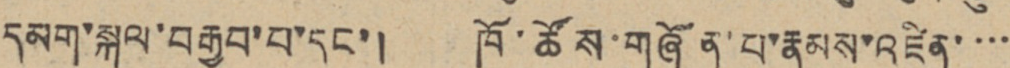དམག་སྐུལ་བརྒྱབ་པ་དང་། ཁོ་ཚོས་གཞོན་པ་རྣམས་འཛིན་་་་
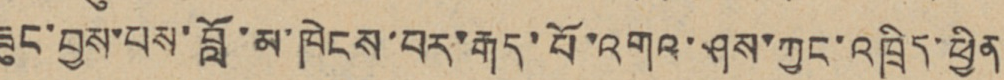ཟུང་བྱས་པས་བློ་མ་ཁེངས་པར་རྒད་པོ་འགའ་ཤས་ཀྱང་འཁྲིད་ཕྱིན
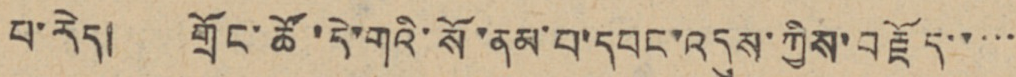པ་རེད། གྲོང་ཚོ་དེ་གའི་སོ་ནམ་པ་དབང་འདུས་ཀྱིས་བརྗོད་་་་་
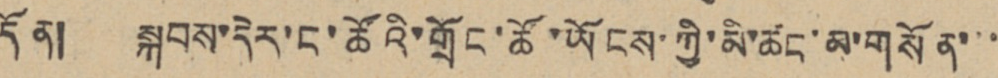དོན། སྐབས་དེར་ང་ཚོའི་གྲོང་ཚོ་ཡོངས་ཀྱི་མི་ཚང་མ་གསོན་་་
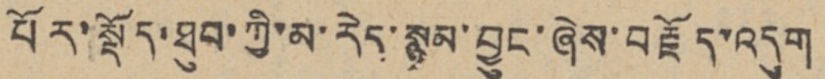པོར་སྡོད་ཐུབ་ཀྱི་མ་རེད་སྙམ་བྱུང་ཞེས་བརྗོད་འདུག
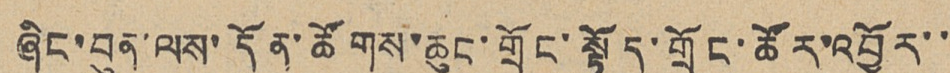ཞིང་བུན་ལས་དོན་ཚོགས་ཆུང་གྲོང་སྟོད་གྲོང་ཚོར་འབྱོར་་
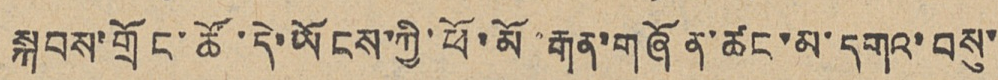སྐབས་གྲོང་ཚོ་དེ་ཡོངས་ཀྱི་ཕོ་མོ་རྒན་གཞོན་ཚང་མ་དགའ་བསུ་་
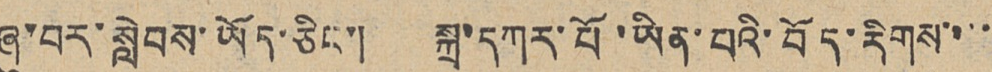ཞུ་བར་སླེབས་ཡོད་ཅིང་། སྐྲ་དཀར་པོ་ཡིན་པའི་བོད་རིགས་་་་
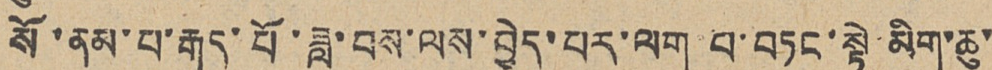སོ་ནམ་པ་རྒད་པོ་ཟླ་བས་ལས་བྱེད་པར་ལག པ་བཏང་སྟེ་མིག་ཆུ་་
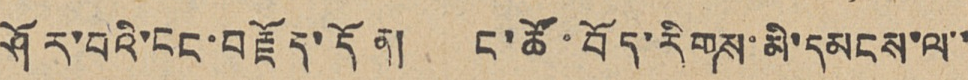ཤོར་བའི་ངང་བརྗོད་དོན། ང་ཚོ་བོད་རིགས་མི་དམངས་ལ་་
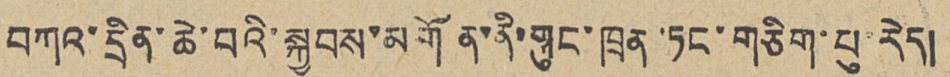བཀའ་དྲིན་ཆེ་བའི་སྐྱབས་མགོན་ནི་གུང་ཁྲན་ཏང་གཅིག་པུ་རེད།
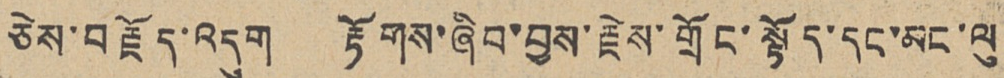ཅེས་བརྗོད་འདུག རྟོགས་ཞིབ་བྱས་རྗེས་གྲོང་སྟོད་དང་མང་ལུ
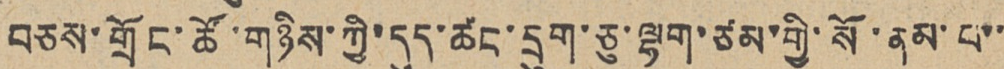བཅས་གྲོང་ཚོ་གཉིས་ཀྱི་དུད་ཚང་དྲུག་ཅུ་ལྷག་ཙམ་གྱི་སོ་ནམ་པ་་
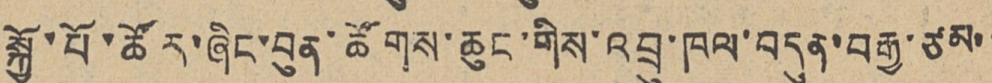སྐྱོ་པོ་ཚོར་ཞིང་བུན་ཚོགས་ཆུང་གིས་འབྲུ་ཁལ་བདུན་བརྒྱ་ཙམ་་
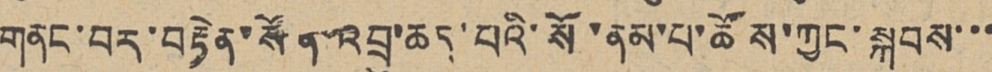གནང་བར་བརྟེན་སོན་འབྲུ་ཆད་པའི་སོ་ནམ་པ་ཚོས་ཀྱང་སྐབས་་་
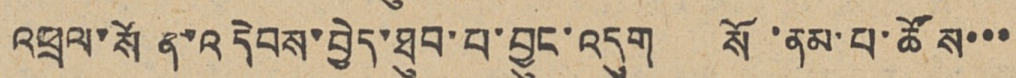འཕྲལ་སོན་འདེབས་བྱེད་ཐུབ་པ་བྱུང་འདུག སོ་ནམ་པ་ཚོས་་་
